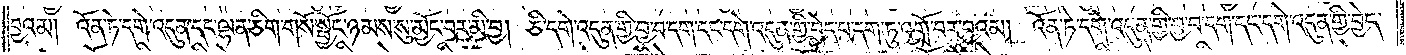བྱའམ། འོན་ཏེ་དགེ་འདུན་དང་ལྷན་ཅིག་གསོ་སྦྱོང་ཉམས་སུ་མྱོང་བར་མི་བྱ། ཅི་དགེ་འདུན་གྱི་བྱ་བ་དག་དང་དགེ་འདུན་གྱི་བྱེད་པ་དག་ཏུ་འགྲོ་བར་བྱའམ། འོན་ཏེ་དགེ་འདུན་གྱི་བྱ་བ་དག་དང་དགེ་འདུན་གྱི་བྱེད་
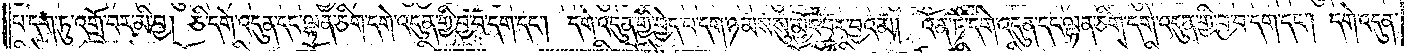པ་དག་ཏུ་འགྲོ་བར་མི་བྱ། ཅི་དགེ་འདུན་དང་ལྷན་ཅིག་དགེ་འདུན་གྱི་བྱ་བ་དག་དང༌། དགེ་འདུན་གྱི་བྱེད་པ་དག་ཉམས་སུ་མྱོང་བར་བྱའམ། འོན་ཏེ་དགེ་འདུན་དང་ལྷན་ཅིག་དགེ་འདུན་གྱི་བྱ་བ་དག་དང༌། དགེ་འདུན་
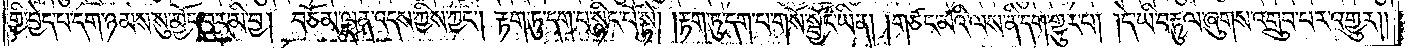གྱི་བྱེད་པ་དག་ཉམས་སུ་མྱོང་བར་མི་བྱ། བཅོམ་ལྡན་འདས་ཀྱིས་ཀྱང༌། རྟག་ཏུ་དག་པ་སྙིང་པོ་སྟེ། །རྟག་ཏུ་དག་པ་གསོ་སྦྱོང་ཡིན། །གཙང་མའི་ལས་ནི་དག་གྱུར་པ། །དེ་ཡི་བརྟུལ་ཞུགས་འགྲུབ་པར་འགྱུར༎
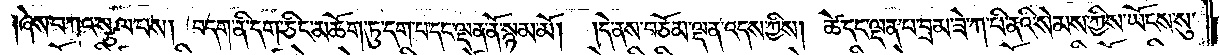ཞེས་བཀའ་སྩལ་པས། བདག་ནི་དག་ཅིང་མཆོག་ཏུ་དག་པ་དང་ལྡན་ནོ་སྙམ་མོ། །དེ་ནས་བཅོམ་ལྡན་འདས་ཀྱིས། ཚེ་དང་ལྡན་པ་བྲམ་ཟེ་ཀ་པི་ནའི་སེམས་ཀྱིས་ཡོངས་སུ་
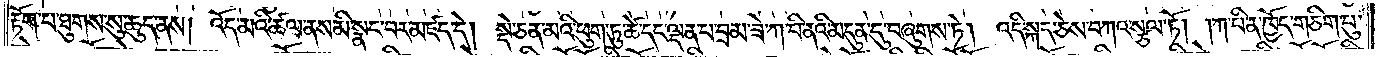རྟོག་པ་ཐུགས་སུ་ཆུད་ནས། འོད་མའི་ཚལ་ནས་མི་སྣང་བར་མཛད་དེ། སྡེ་ཅན་མའི་ཕུག་ཏུ་ཚེ་དང་ལྡན་པ་བྲམ་ཟེ་ཀ་པི་ནའི་མདུན་དུ་བཞུགས་ཏེ། འདི་སྐད་ཅེས་བཀའ་སྩལ་ཏོ། །ཀ་པི་ན་ཁྱོད་གཅིག་པུ་
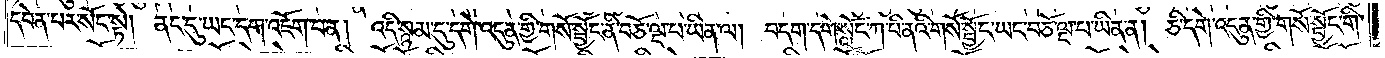དབེན་པར་སོང་སྟེ། ནང་དུ་ཡང་དག་འཇོག་པ་ན། འདི་སྙམ་དུ་དགེ་འདུན་གྱི་གསོ་སྦྱོང་ནི་བཅོ་ལྔ་པ་ཡིན་ལ། བདག་དགེ་སློང་ཀ་པི་ནའི་གསོ་སྦྱོང་ཡང་བཅོ་ལྔ་པ་ཡིན་ན། ཅི་དགེ་འདུན་གྱི་གསོ་སྦྱོང་གི་
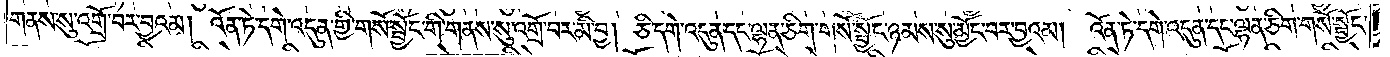གནས་སུ་འགྲོ་བར་བྱའམ། འོན་ཏེ་དགེ་འདུན་གྱི་གསོ་སྦྱོང་གི་གནས་སུ་འགྲོ་བར་མི་བྱ། ཅི་དགེ་འདུན་དང་ལྷན་ཅིག་གསོ་སྦྱོང་ཉམས་སུ་མྱོང་བར་བྱའམ། འོན་ཏེ་དགེ་འདུན་དང་ལྷན་ཅིག་གསོ་སྦྱོང་
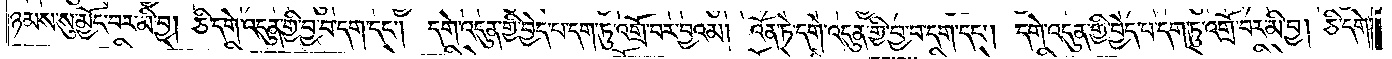ཉམས་སུ་མྱོང་བར་མི་བྱ། ཅི་དགེ་འདུན་གྱི་བྱ་བ་དག་དང༌། དགེ་འདུན་གྱི་བྱེད་པ་དག་ཏུ་འགྲོ་བར་བྱའམ། འོན་ཏེ་དགེ་འདུན་གྱི་བྱ་བ་དག་དང༌། དགེ་འདུན་གྱི་བྱེད་པ་དག་ཏུ་འགྲོ་བར་མི་བྱ། ཅི་དགེ་
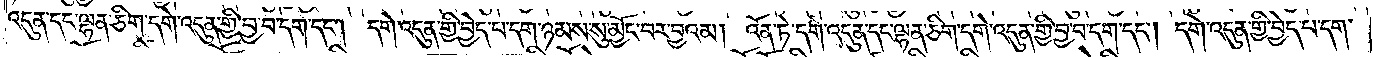འདུན་དང་ལྷན་ཅིག་དགེ་འདུན་གྱི་བྱ་བ་དག་དང༌། དགེ་འདུན་གྱི་བྱེད་པ་དག་ཉམས་སུ་མྱོང་བར་བྱའམ། འོན་ཏེ་དགེ་འདུན་དང་ལྷན་ཅིག་དགེ་འདུན་གྱི་བྱ་བ་དག་དང༌། དགེ་འདུན་གྱི་བྱེད་པ་དག་
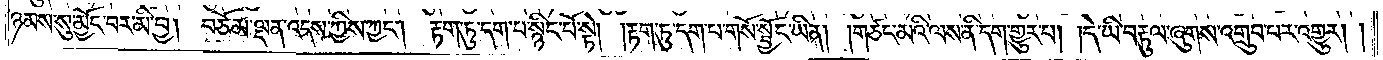ཉམས་སུ་མྱོང་བར་མི་བྱ། བཅོམ་ལྡན་འདས་ཀྱིས་ཀྱང༌། རྟག་ཏུ་དག་པ་སྙིང་པོ་སྟེ། །རྟག་ཏུ་དག་པ་གསོ་སྦྱོང་ཡིན། །གཙང་མའི་ལས་ནི་དག་གྱུར་པ། །དེ་ཡི་བརྟུལ་ཞུགས་འགྲུབ་པར་འགྱུར། །
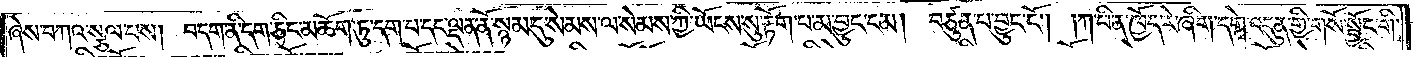ཞེས་བཀའ་སྩལ་པས། བདག་ནི་དག་ཅིང་མཆོག་ཏུ་དག་པ་དང་ལྡན་ནོ་སྙམ་དུ་སེམས་ལ་སེམས་ཀྱི་ཡོངས་སུ་རྟོག་པ་མ་བྱུང་ངམ། བཙུན་པ་བྱུང་ངོ༌། །ཀ་པི་ན་ཁྱོད་རེ་ཞིག་དགེ་འདུན་གྱི་གསོ་སྦྱོང་གི་
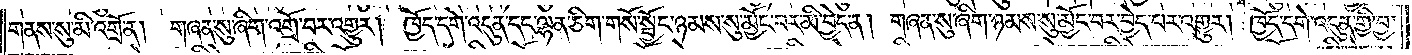གནས་སུ་མི་འགྲོ་ན། གཞན་སུ་ཞིག་འགྲོ་བར་འགྱུར། ཁྱོད་དགེ་འདུན་དང་ལྷན་ཅིག་གསོ་སྦྱོང་ཉམས་སུ་མྱོང་བར་མི་བྱེད་ན། གཞན་སུ་ཞིག་ཉམས་སུ་མྱོང་བར་བྱེད་པར་འགྱུར། ཁྱོད་དགེ་འདུན་གྱི་བྱ་
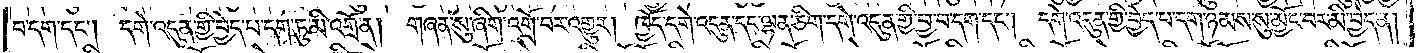བ་དག་དང༌། དགེ་འདུན་གྱི་བྱེད་པ་དག་ཏུ་མི་འགྲོ་ན། གཞན་སུ་ཞིག་འགྲོ་བར་འགྱུར། ཁྱོད་དགེ་འདུན་དང་ལྷན་ཅིག་དགེ་འདུན་གྱི་བྱ་བ་དག་དང༌། དགེ་འདུན་གྱི་བྱེད་པ་དག་ཉམས་སུ་མྱོང་བར་མི་བྱེད་ན།
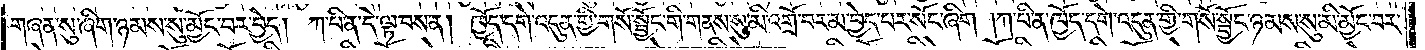གཞན་སུ་ཞིག་ཉམས་སུ་མྱོང་བར་བྱེད། ཀ་པི་ན་དེ་ལྟ་བས་ན། ཁྱོད་དགེ་འདུན་གྱི་གསོ་སྦྱོང་གི་གནས་སུ་མི་འགྲོ་བར་མ་བྱེད་པར་སོང་ཞིག །ཀ་པི་ན་ཁྱོད་དགེ་འདུན་གྱི་གསོ་སྦྱོང་ཉམས་སུ་མི་མྱོང་བར་
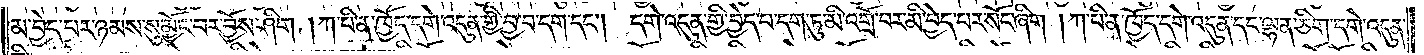མ་བྱེད་པར་ཉམས་སུ་མྱོང་བར་བྱོས་ཤིག །ཀ་པི་ན་ཁྱོད་དགེ་འདུན་གྱི་བྱ་བ་དག་དང༌། དགེ་འདུན་གྱི་བྱེད་པ་དག་ཏུ་མི་འགྲོ་བར་མི་བྱེད་པར་སོང་ཞིག །ཀ་པི་ན་ཁྱོད་དགེ་འདུན་དང་ལྷན་ཅིག་དགེ་འདུན་
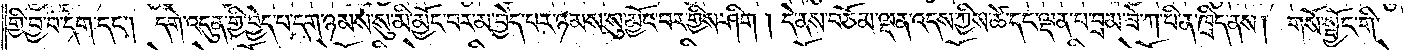གྱི་བྱ་བ་དག་དང༌། དགེ་འདུན་གྱི་བྱེད་པ་དག་ཉམས་སུ་མི་མྱོང་བར་མ་བྱེད་པར་ཉམས་སུ་མྱོང་བར་གྱིས་ཤིག །  དེ་ནས་བཅོམ་ལྡན་འདས་ཀྱིས་ཚེ་དང་ལྡན་པ་བྲམ་ཟེ་ཀ་པི་ན་ཁྲིད་ནས། གསོ་སྦྱོང་གི་
